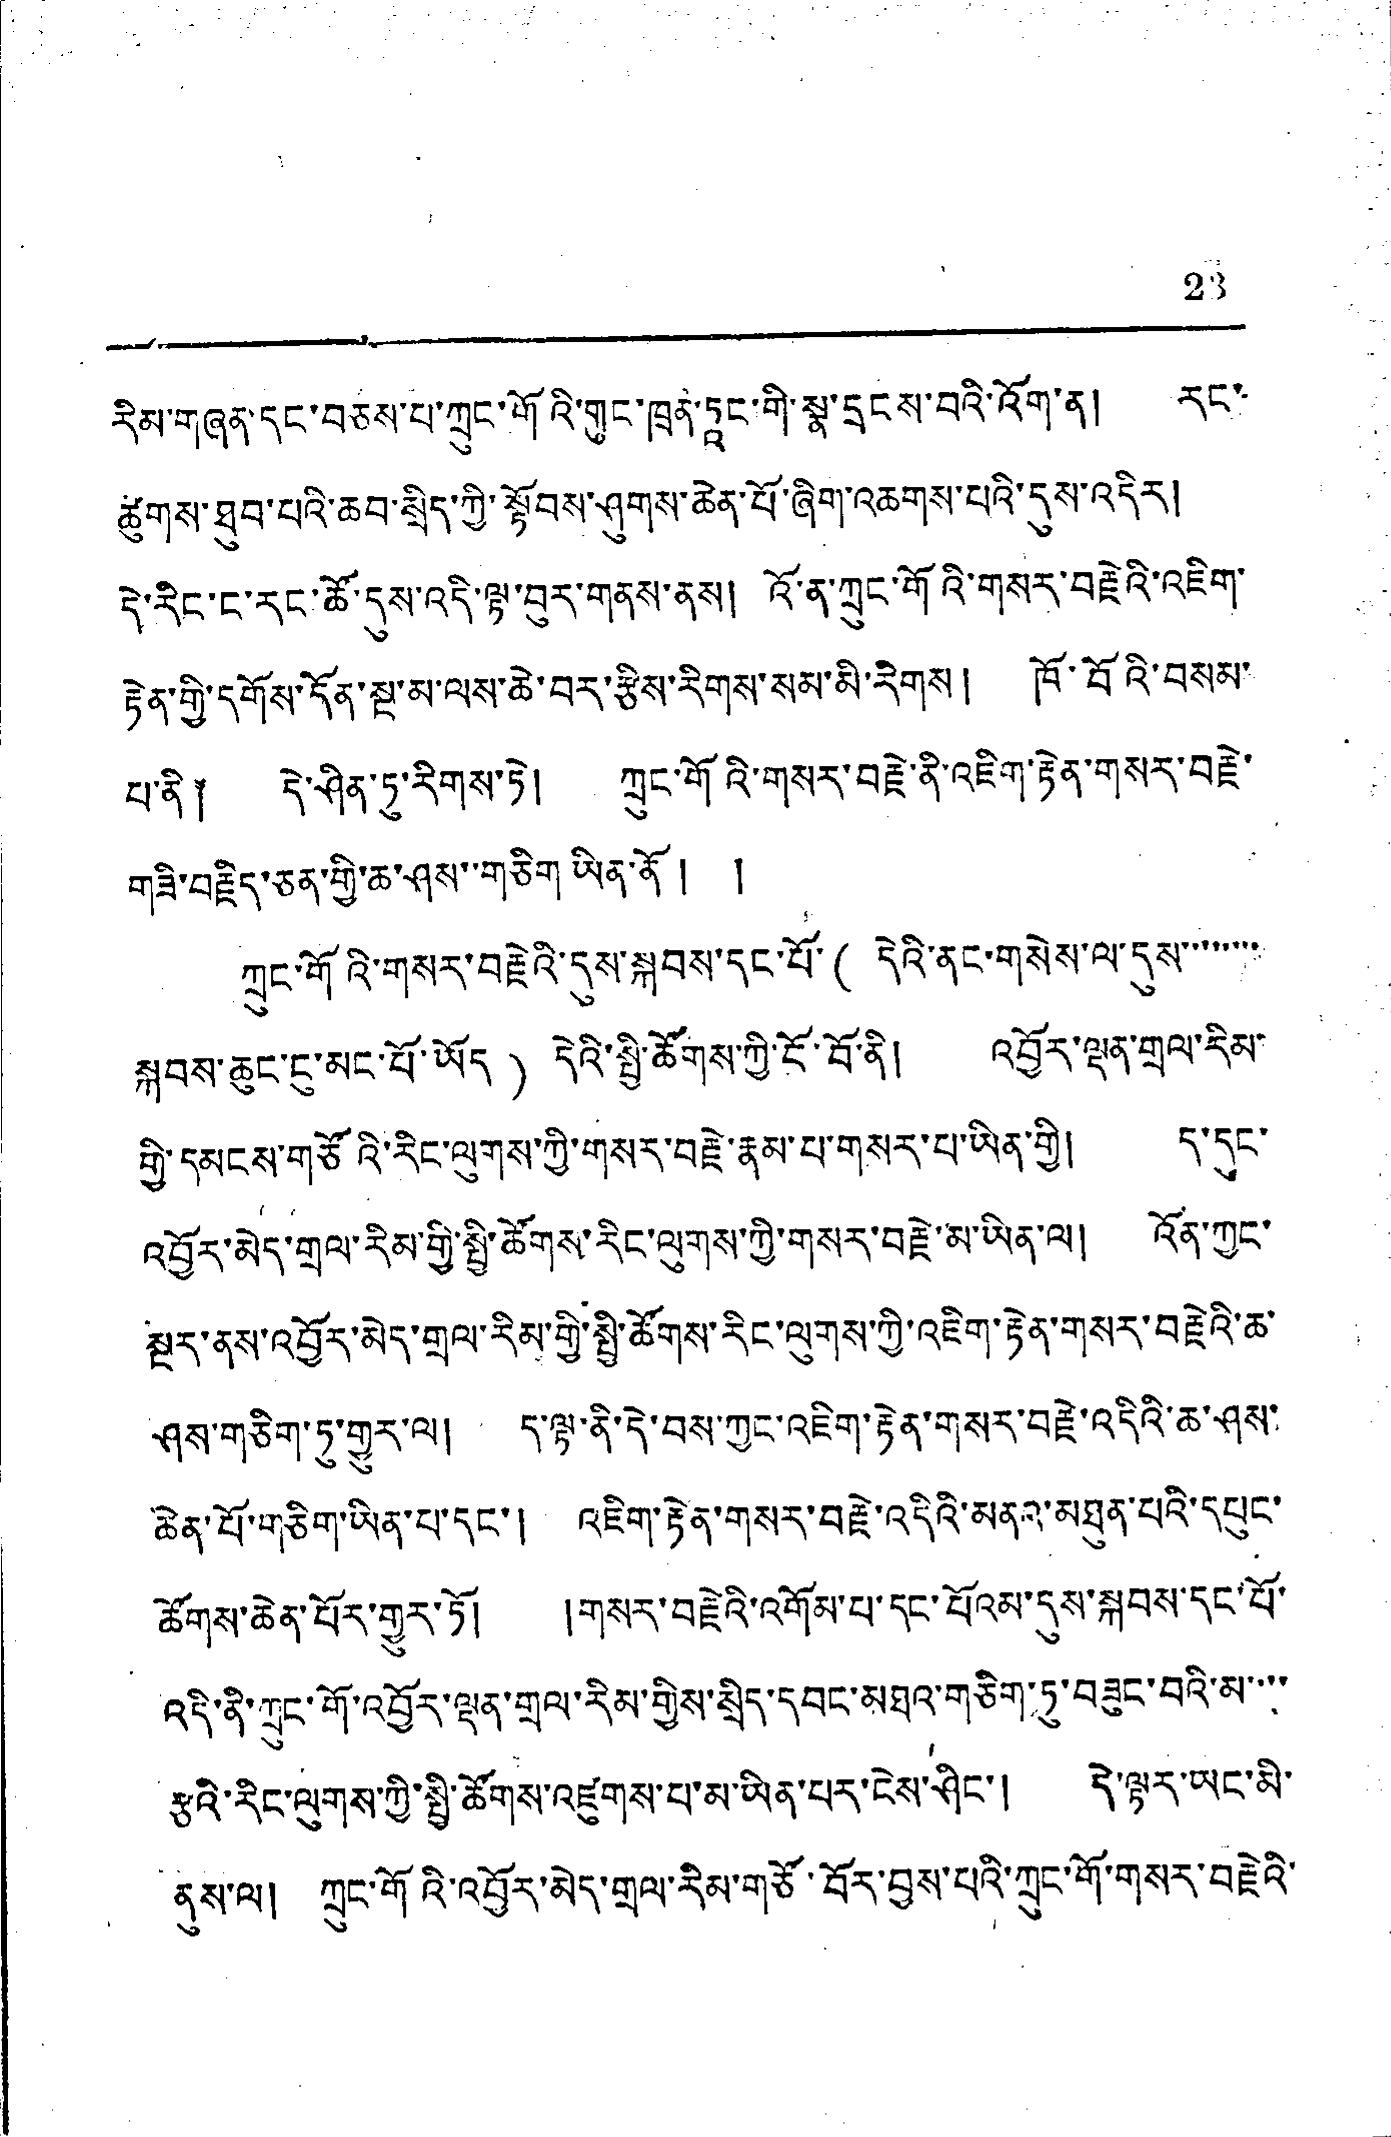23
རིམ་གཞན་དང་བཅས་པ་ཀྲུང་གོའི་གུང་ཁྲན་ཏཱང་གི་སྣ་དྲངས་བའི་འོག་ན། རང་
ཚུགས་ཐུབ་པའི་ཆབ་སྲིད་ཀྱི་སྟོབས་ཤུགས་ཆེན་པོ་ཞིག་འཆགས་པའི་དུས་འདིར།
དེ་རིང་ང་རང་ཚོ་དུས་འདི་ལྟ་བུར་གནས་ནས། འོ་ན་ཀྲུང་གོའི་གསར་བརྗེའི་འཇིག་
རྟེན་གྱི་དགོས་དོན་སྔ་མ་ལས་ཆེ་བར་རྩིས་རིགས་སམ་མི་རིགས། ཁོ་བོའི་བསམ་
པ་ནི༐ དེ་ཤིན་ཏུ་རིགས་ཏེ། ཀྲུང་གོའི་གསར་བརྗེ་ནི་འཇིག་རྟེན་གསར་བརྗེ་
བཟི་བརྗིད་ཅན་གྱི་ཆ་ཤས་གཅིག་ཡིན་ནོ། །
ཀྲུང་གོའི་གསར་བརྗེའི་དུས་སྐབས་དང་པོ་( དེའི་ནང་གསེས་ལ་དུས་་་་་་་་
སྐབས་ཆུང་ངུ་མང་པོ་ཡོད ) དེའི་སྤྱི་ཚོགས་ཀྱི་ངོ་བོ་ནི། འབྱོར་ལྡན་གྲལ་རིམ་
གྱི་དམངས་གཙོའི་རིང་ལུགས་ཀྱི་གསར་བརྗེ་རྣམ་པ་གསར་པ་ཡིན་གྱི། ད་དུང་
འབྱོར་མེད་གྲལ་རིམ་གྱི་སྤྱི་ཚོགས་རིང་ལྒུས་ཀྱི་གསར་བརྗེ་མ་ཡིན་ལ། འོན་ཀྱང་
སྔར་ནས་འབྱོར་མེད་གྲལ་རིམ་གྱི་སྤྱི་ཚོགས་རིང་ལུགས་ཀྱི་འཇིག་རྟེན་གསར་བརྗེའི་ཆ་
ཤས་གཅིག་ཏུ་གྱུར་ལ། ད་ལྟ་ནི་དེ་བས་ཀྱང་འཇིག་རྟེན་གསྲ་བརྗེ་འདིའི་ཆ་ཤས་
ཆེན་པོ་གཅིག་ཡིན་པ་དང་། འཇིག་ཏེན་གསར་བརྗེ་འདིའི་མནའ་མཐུན་པའི་དཔུང་
ཚོགས་ཆེན་པོར་གྱུར་ཏོ། །གསར་བརྗེའི་འགོམ་པ་དང་པོའམ་དུས་སྐབས་དང་པོ་
འདི་ནི་ཀྲུང་གོ་འབྱོར་ལྡན་གྲལ་རིམ་གྱསི་སྲིད་དབང་མཐའ་གཅིག་ཏུ་བཟུང་བའི་མ་་་་
རྩའི་རིང་ལུསྒ་ཀྱི་སྤྱི་ཚོགས་འཛུགས་པ་མ་ཡིན་པར་ངེས་ཤིང་། དེ་ལྟར་ཡང་མི་
ནུས་ལ། ཀྲུང་གོའི་འབྱོར་མེད་གྲལ་རིམ་གཙོ་བོར་བྱས་པའི་ཀྲུང་གོ་གསར་བརྗེའི་
